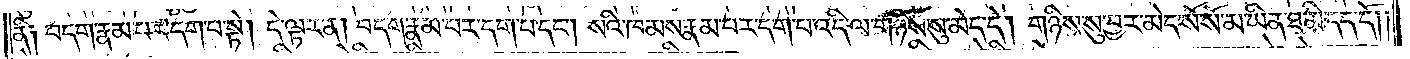ནི༑ བདག་རྣམ་པར་དག་པ་སྟེ། དེ་ལྟར་ན། བདག་རྣམ་པར་དག་པ་དང༌། སའི་ཁམས་རྣམ་པར་དག་པ་འདི་ལ་གཉིས་སུ་མེད་དེ། གཉིས་སུ་བྱར་མེད་སོ་སོ་མ་ཡིན་ཐ་མི་དད་དོ། །
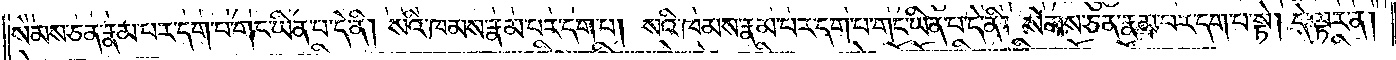སེམས་ཅན་རྣམ་པར་དག་པ་གང་ཡིན་པ་དེ་ནི། སའི་ཁམས་རྣམ་པར་དག་པ། སའི་ཁམས་རྣམ་པར་དག་པ་གང་ཡིན་པ་དེ་ནི། སེམས་ཅན་རྣམ་པར་དག་པ་སྟེ། དེ་ལྟར་ན།
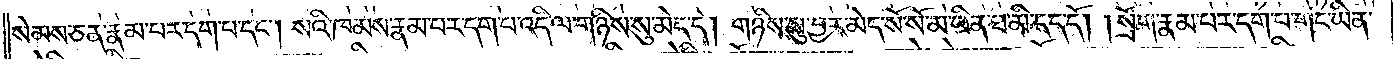སེམས་ཅན་རྣམ་པར་དག་པ་དང༌། སའི་ཁམས་རྣམ་པར་དག་པ་འདི་ལ་གཉིས་སུ་མེད་དེ། གཉིས་སུ་བྱར་མེད་སོ་སོ་མ་ཡིན་ཐ་མི་དད་དོ། །སྲོག་རྣམ་པར་དག་པ་གང་ཡིན་
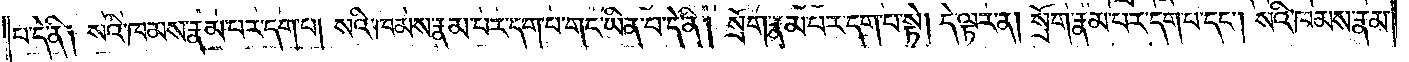པ་དེ་ནི༑ སའི་ཁམས་རྣམ་པར་དག་པ། སའི་ཁམས་རྣམ་པར་དག་པ་གང་ཡིན་པ་དེ་ནི། སྲོག་རྣམ་པར་དག་པ་སྟེ། དེ་ལྟར་ན། སྲོག་རྣམ་པར་དག་པ་དང༌། སའི་ཁམས་རྣམ་
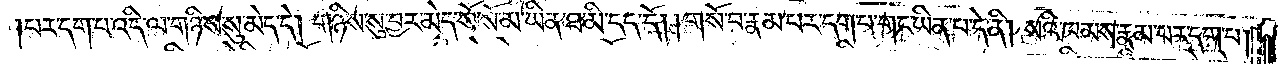པར་དག་པ་འདི་ལ་གཉིས་སུ་མེད་དེ། གཉིས་སུ་བྱར་མེད་སོ་སོ་མ་ཡིན་ཐ་མི་དད་དོ། །གསོ་བ་རྣམ་པར་དག་པ་གང་ཡིན་པ་དེ་ནི། སའི་ཁམས་རྣམ་པར་དག་པ།
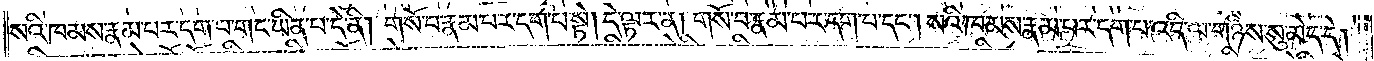སའི་ཁམས་རྣམ་པར་དག་པ་གང་ཡིན་པ་དེ་ནི། གསོ་བ་རྣམ་པར་དག་པ་སྟེ། དེ་ལྟར་ན། གསོ་བ་རྣམ་པར་དག་པ་དང༌། སའི་ཁམས་རྣམ་པར་དག་པ་འདི་ལ་གཉིས་སུ་མེད་དེ།
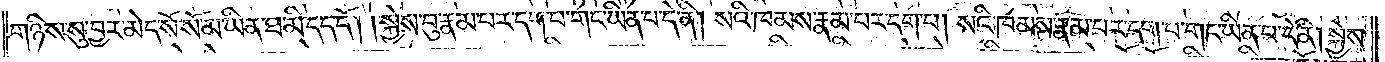གཉིས་སུ་བྱར་མེད་སོ་སོ་མ་ཡིན་ཐ་མི་དད་དོ། །སྐྱེས་བུ་རྣམ་པར་དག་པ་གང་ཡིན་པ་དེ་ནི། སའི་ཁམས་རྣམ་པར་དག་པ། སའི་ཁམས་རྣམ་པར་དག་པ་གང་ཡིན་པ་དེ་ནི། སྐྱེས་
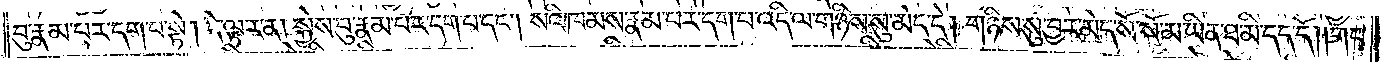བུ་རྣམ་པར་དག་པ་སྟེ། དེ་ལྟར་ན། སྐྱེས་བུ་རྣམ་པར་དག་པ་དང༌། སའི་ཁམས་རྣམ་པར་དག་པ་འདི་ལ་གཉིས་སུ་མེད་དེ། གཉིས་སུ་བྱར་མེད་སོ་སོ་མ་ཡིན་ཐ་མི་དད་དོ། །གང་
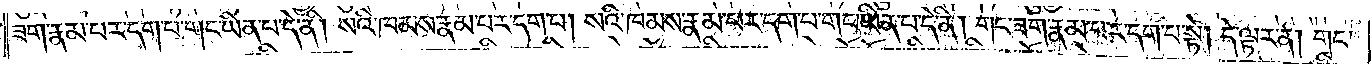ཟག་རྣམ་པར་དག་པ་གང་ཡིན་པ་དེ་ནི། སའི་ཁམས་རྣམ་པར་དག་པ། སའི་ཁམས་རྣམ་པར་དག་པ་གང་ཡིན་པ་དེ་ནི། གང་ཟག་རྣམ་པར་དག་པ་སྟེ། དེ་ལྟར་ན། གང་
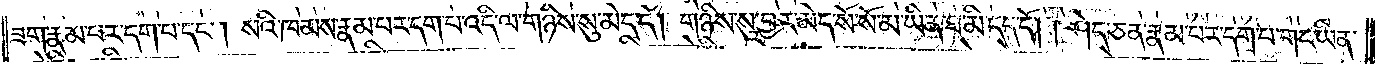ཟག་རྣམ་པར་དག་པ་དང༌། སའི་ཁམས་རྣམ་པར་དག་པ་འདི་ལ་གཉིས་སུ་མེད་དེ། གཉིས་སུ་བྱར་མེད་སོ་སོ་མ་ཡིན་ཐ་མི་དད་དོ། །ཤེད་ཅན་རྣམ་པར་དག་པ་གང་ཡིན་
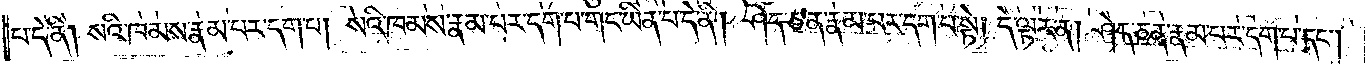པ་དེ་ནི། སའི་ཁམས་རྣམ་པར་དག་པ། སའི་ཁམས་རྣམ་པར་དག་པ་གང་ཡིན་པ་དེ་ནི། ཤེད་ཅན་རྣམ་པར་དག་པ་སྟེ། དེ་ལྟར་ན། ཤེད་ཅན་རྣམ་པར་དག་པ་དང༌།
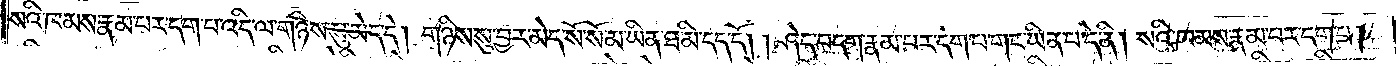སའི་ཁམས་རྣམ་པར་དག་པ་འདི་ལ་གཉིས་སུ་མེད་དེ། གཉིས་སུ་བྱར་མེད་སོ་སོ་མ་ཡིན་ཐ་མི་དད་དོ། །ཤེད་བདག་རྣམ་པར་དག་པ་གང་ཡིན་པ་དེ་ནི། སའི་ཁམས་རྣམ་པར་དག་པ།
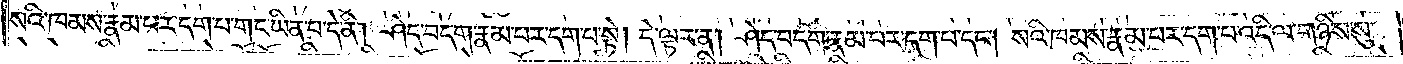སའི་ཁམས་རྣམ་པར་དག་པ་གང་ཡིན་པ་དེ་ནི། ཤེད་བདག་རྣམ་པར་དག་པ་སྟེ། དེ་ལྟར་ན། ཤེད་བདག་རྣམ་པར་དག་པ་དང༌། སའི་ཁམས་རྣམ་པར་དག་པ་འདི་ལ་གཉིས་སུ་
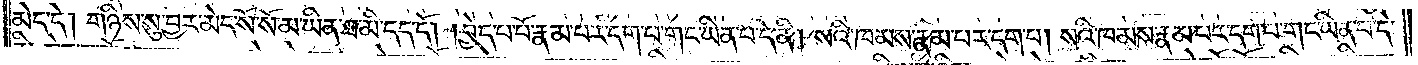མེད་དེ། གཉིས་སུ་བྱར་མེད་སོ་སོ་མ་ཡིན་ཐ་མི་དད་དོ། །བྱེད་པ་པོ་རྣམ་པར་དག་པ་གང་ཡིན་པ་དེ་ནི། སའི་ཁམས་རྣམ་པར་དག་པ། སའི་ཁམས་རྣམ་པར་དག་པ་གང་ཡིན་པ་དེ་
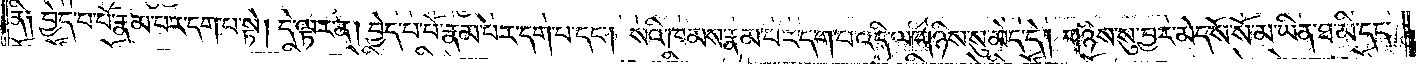ནི༑ བྱེད་པ་པོ་རྣམ་པར་དག་པ་སྟེ། དེ་ལྟར་ན། བྱེད་པ་པོ་རྣམ་པར་དག་པ་དང༌། སའི་ཁམས་རྣམ་པར་དག་པ་འདི་ལ་གཉིས་སུ་མེད་དེ། གཉིས་སུ་བྱར་མེད་སོ་སོ་མ་ཡིན་ཐ་མི་དད་
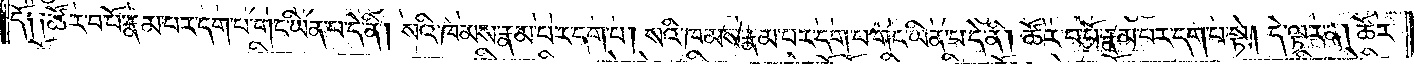དོ༑ ༑ཚོར་བ་པོ་རྣམ་པར་དག་པ་གང་ཡིན་པ་དེ་ནི། སའི་ཁམས་རྣམ་པར་དག་པ། སའི་ཁམས་རྣམ་པར་དག་པ་གང་ཡིན་པ་དེ་ནི། ཚོར་བ་པོ་རྣམ་པར་དག་པ་སྟེ། དེ་ལྟར་ན། ཚོར་
